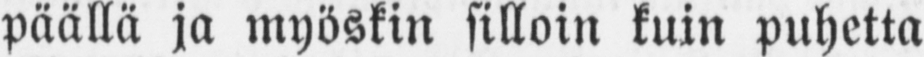päällä ja myöskin silloin kuin puhetta
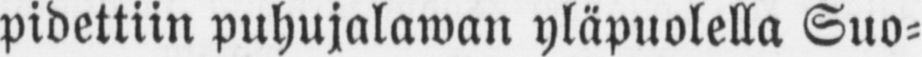pidettiin puhujalawan yläpuolella Suo-
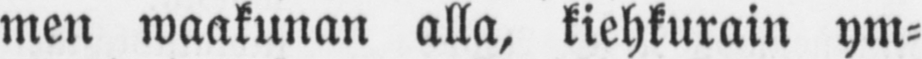men waakunan alla, kiehkurain ym-
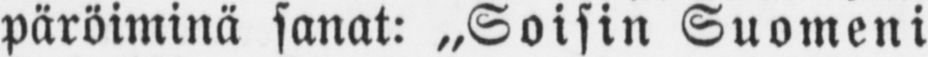päröiminä sanat: „Soisin Suomeni
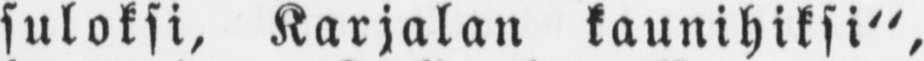suloksi. Karjalan kaunihiksi",
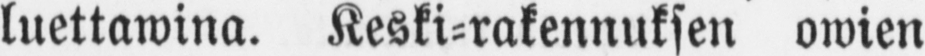luettawina. Keski-rakennuksen owien
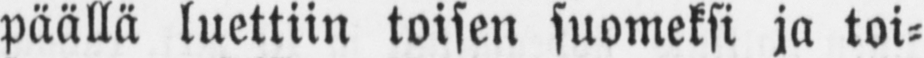päällä luettiin toisen suomeksi ja toi-
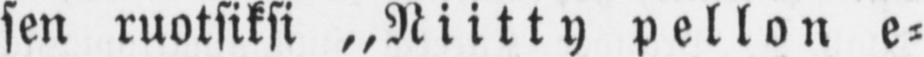sen ruotsiksi ,,Niitty pellon e-
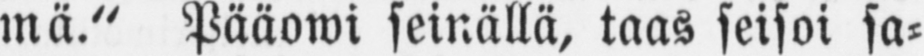mä." Pääowi seinällä, taas seisoi sa-
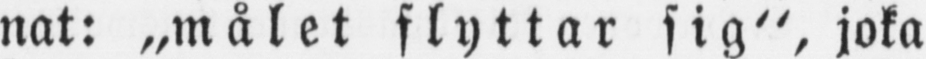nat: „målet flyttar sig", joka
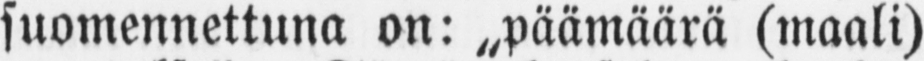suomennettuna on:˶Päämäärä (maali)
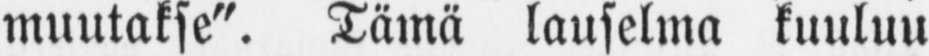muutakse". Tämä lauselma kuuluu
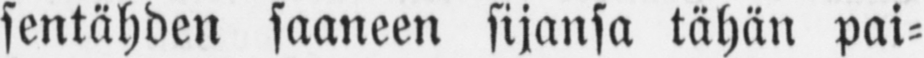sentähden saaneen sijansa tähän pai-
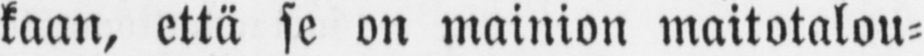kaan, että se on mainion maitotalou-
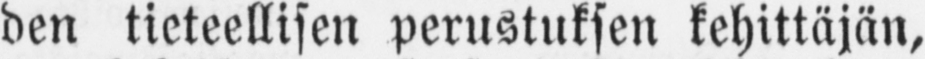den tieteellisen perustuksen kehittäjän,
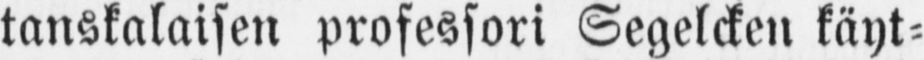tanskalaisen professori Segelcken käyt-
